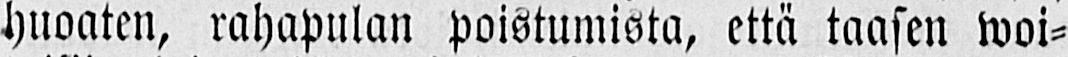huoaten, rahapulan poistumista, että taasen woi-
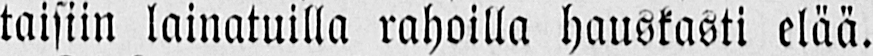taisiin lainatuilla rahoilla hauskasti elää.
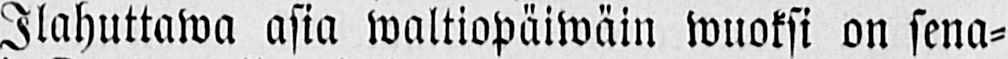Ilahuttawa asia waltiopäiwäin wuoksi on sena-
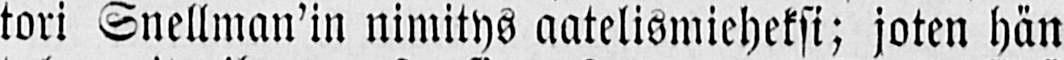tori Snellman'in nimitys aatelismieheksi; joten hän
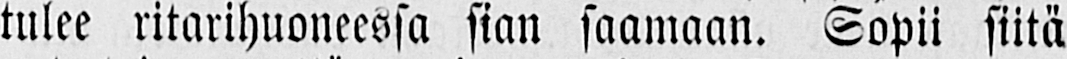tulee ritarihuoneessa sian saamaan. Sopii siitä
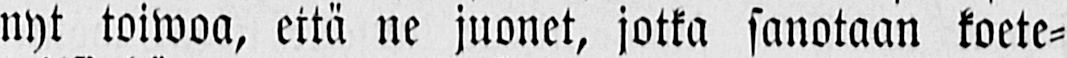nyt toiwoa, että ne juonet, jotka sanotaan koete-
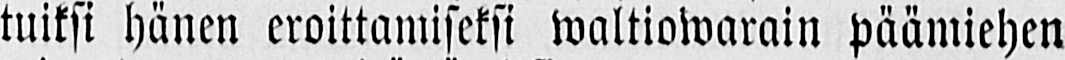tuiksi hänen eroittamiseksi waltiowarain päämiehen
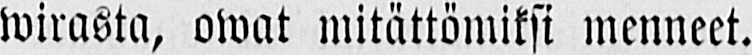wirasta, owat mitättömiksi menneet.
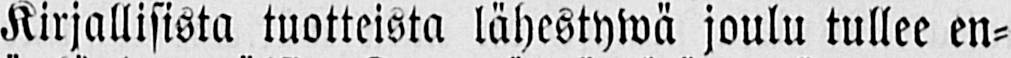Kirjallisista tuotteista lähestywä joulu tullee en-
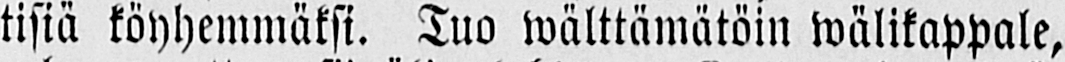tisiä köyhemmäksi. Tuo wälttämätöin wälikappale,
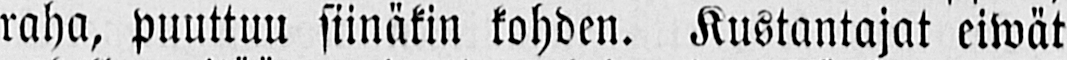raha, puuttuu siinäkin kohden. Kustantajat eiwät
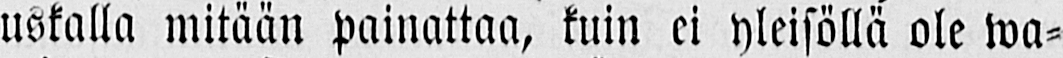uskalla mitään painattaa, kuin ei yleisöllä ole wa-
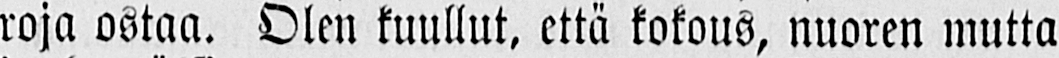roja ostaa. Olen kuullut, että kokous, nuoren mutta
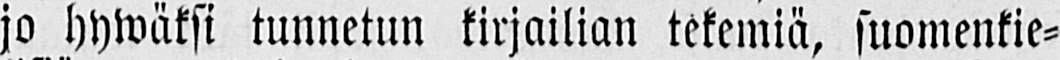jo hywäksi tunnetun kirjailian tekemiä, suomenkie-
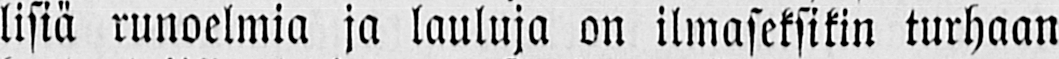lisiä runoelmia ja lauluja on ilmaseksikin turhaan
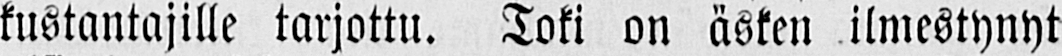kustantajille tarjottu. Toki on äsken ilmestynyt
